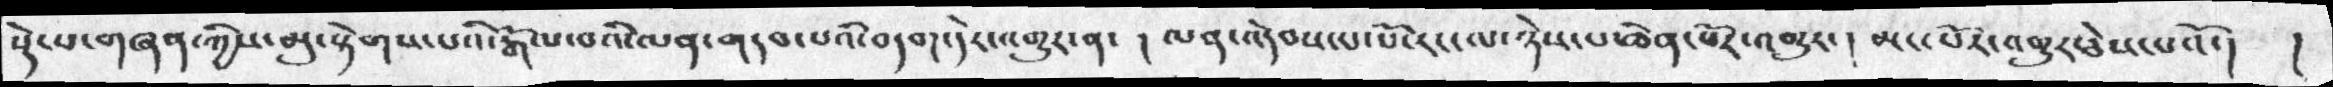སྡེ་པ་གཞན་ཀྱིས་མུ་སྟེགས་པའི་རྒོལ་བའི་ལན་གདབ་པའི་བདག་དེར་འགྱུར་ན་ ། ལན་འདེབས་པ་པོ་རང་ལ་ཉེས་པ་ཆེན་པོར་འགྱུར་། མང་པོར་འགྱུར་ཅེས་པའོ་།  །
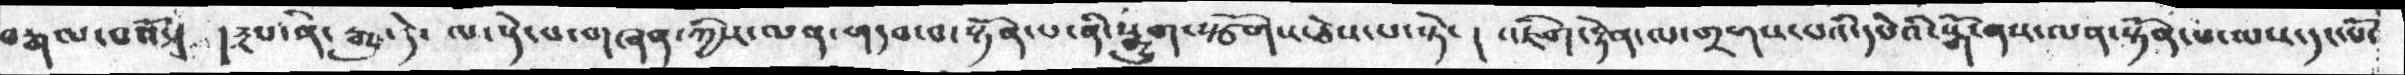བརྒལ་བའོ་། །༣པ་ནི་རྒྱུ་དེ་ལ་སྡེ་པ་གཞན་ཀྱིས་ལན་གདབ་བ་སྟོན་པ་ནི་སྒྱུག་སྩོགས་ཅེས་པ་སྟེ་། འཇིག་རྟེན་ལ་གྲགས་པའི་དཔེའི་སྒོ་ནས་ལན་སྟོན་པ་ལས་དང་པོ་
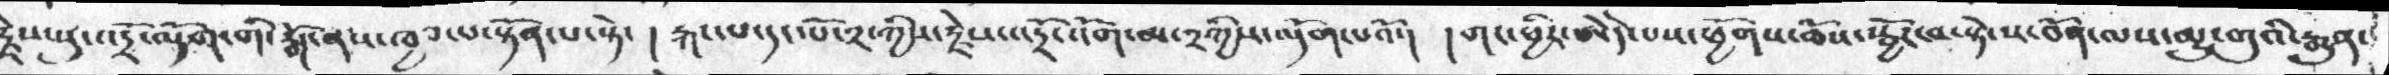རྗེས་སུ་འདྲོ་ལྡོག་གི་སྒོ་ནས་ཁྱབ་པ་སྟོན་པ་སྟེ་ ། རྐང་པ་དང་པོ་༢་ཀྱིས་རྗེས་འདྲོ་འོག་མ་༢ཀྱི་འདོག་པའོ་།  །གང་ཕྱིར་ཨེདེ་པས་ཕྱོགས་ཆོས་སྦྱོར་བ་སྟེ་ས་བོན་ལས་མྱུ་གུའི་རྒྱུན་
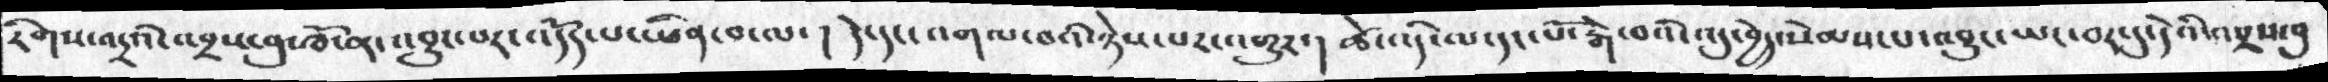རིགས་འདྲའི་འབྲས་བུ་ཁོ་ན་འབྱུང་པར་འདོད་པ་ཡིན་བ་ལ་།  དེ་དང་འགལ་བའི་ཉེས་པར་འགྱུར་།  ཚེ་འདི་ལ་དང་པོ་རྒ་བའི་འདུ་བྱེད་སེམས་པ་འབྱུང་ཡང་བར་དུ་དེའི་འབྲས་བུ
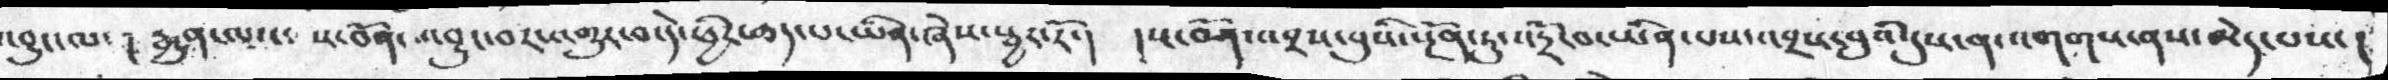འབྱུང་པ་། རྒྱུན་ལས་ ས་བོན་འབྱུང་པར་འགྱུར་བ་དེ་ཕྱིར་ཆད་པ་ཡིན་ཞེས་སྦྱར་རོ་། །ས་བོན་འབྲས་བུའི་སྔོན་དུ་འདྲོ་བ་ཡིན་པས་འབྲས་བུའི་དུས་ན་འགགས་ནས་མེད་པས་ །
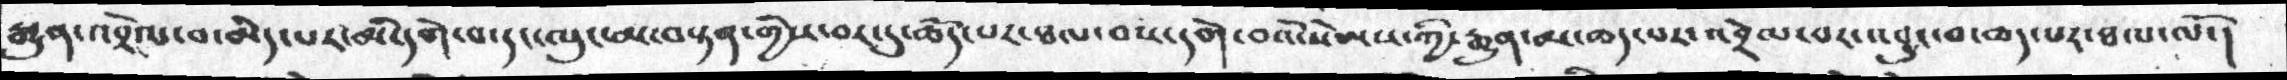རྒྱུན་འབྲེལ་བ་མེད་པར་མི་དགེ་བ་དང་ལུང་མ་བསྟན་གྱིས་བར་དུ་ཆོད་པར་ཐལ་བས་དགེ་བའི་སེམས་ཀྱི་རྒྱུན་མ་ཆད་པར་འབྲེལ་པར་འབྱུང་བ་ཆད་པར་ཐལ་ལོ་།
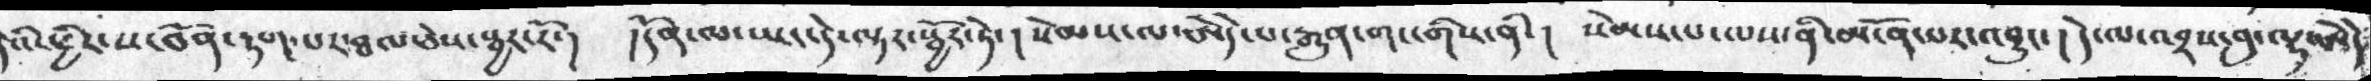པའི་ཕྱིར་ས་བོན་རྟག་པར་ཐལ་ཅེས་སྦྱར་རོ་། །དོན་ལ་ཡང་དེ་ལྟར་སྦྱོར་ཏེ་། སེམས་ལ་ཨེདེ་པ་རྒྱུན་གང་གིས་ནི་།  སེམས་པ་ལས་ནི་མངོན་པར་འབྱུང་། དེ་ལ་འབྲས་བུ་ལྷ་ཨེདེ
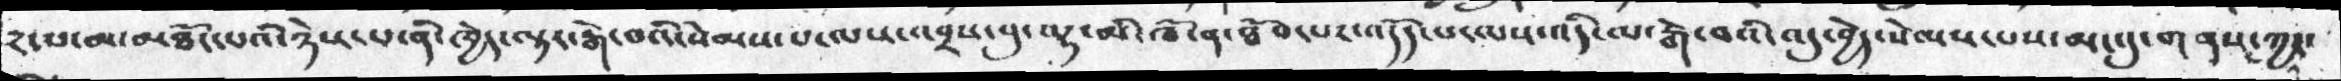༢་པ་མ་མཐོང་པའི་ཉེས་པ་ནི་ཁྱེད་ལྟར་རྒེ་བའི་སེམས་པ་ལས་འབྲས་བུ་ལྷ་མི་ཁོ་ན་ཐོབ་པར་འདོད་པ་ལས་འདི་ལ་རྒེ་བའི་འདུ་བྱེད་སེམས་པས་མང་དུ་གནས་ཀྱང་
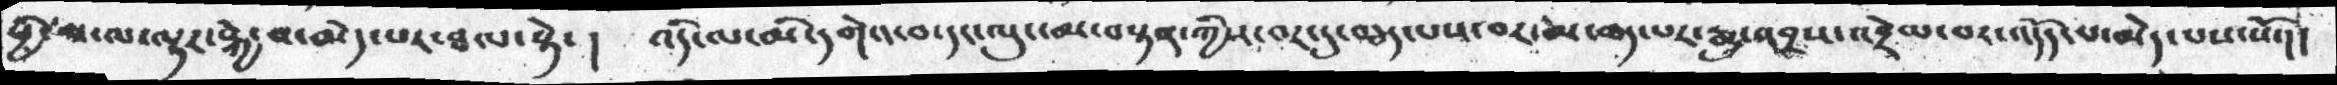ཕྱི་མ་ལ་ལྷར་སྐྱེ་བ་མེད་པར་ཐལ་སྟེ་ ། འདི་ལ་མི་དགེའ་བ་དང་ལུང་མ་བསྟན་ཀྱིས་བར་དུ་བཅད་པས་བར་མ་ཆད་པར་རྒྱུ་འབྲས་འབྲེལ་བར་འདོད་པ་མེད་པས་སོ་།།
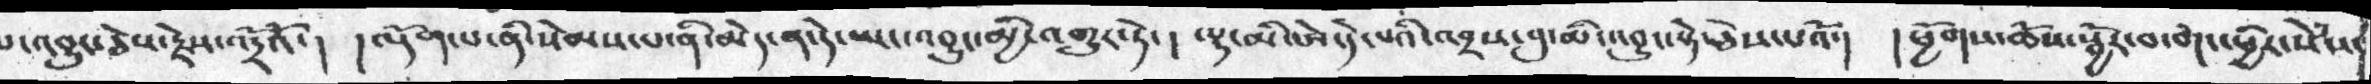པ་འབྱུང་ཅེས་རྗེས་འདྲོའོ་། །འདོག་པ་ནི་སེམས་པ་ནི་མེད་ན་དེ་ཡང་འབྱུང་མྱི་འགྱུར་ཏེ་། ལྷ་མི་ཨེ་དེ་པའི་འབྲས་བུ་མི་འབྱུང་སྟེ་ཅེས་པའོ་།  །ཕྱོགས་ཆོས་སྦྱོར་བ་གང་ཕྱིར་སེཾས་
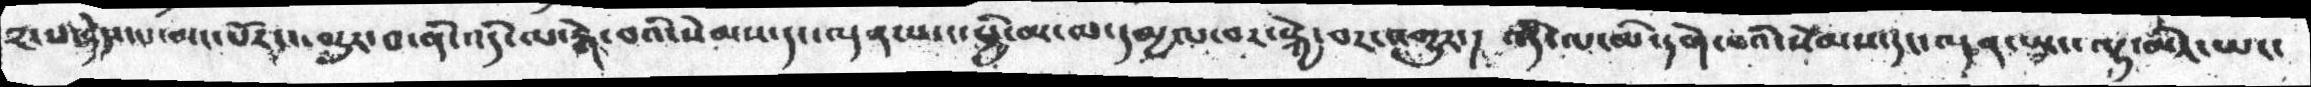༢་པ་ཉེས་པ་མང་པོར་འགྱུར་བ་ནི་འདི་ལ་རྒེ་བའི་སེམས་དང་ལྡན་པས་ཕྱི་མ་ལ་དམྱལ་བར་སྐྱེ་བར་འགྱུར་། འདི་ལ་མི་དགེ་བའི་སེམས་དང་ལྡན་ཡང་ལྷ་མིར་ཡང་
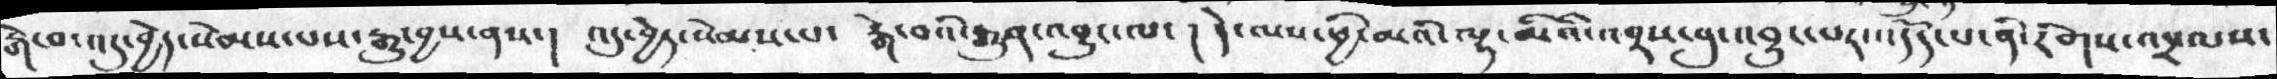རྒེ་བ་འདུ་བྱེད་སེམས་པས་རྒྱུ་བྱས་ནས་།. འདུ་བྱེད་སེམས་པ་  རྒེ་བ་རྒྱུན་འབྱུང་ལ་། དེ་ལས་ཕྱི་མའི་ལྷ་མའི་འབྲས་བུ་འབྱུང་པར་འདོད་པ་ནི་རིགས་འདྲ་ལས་
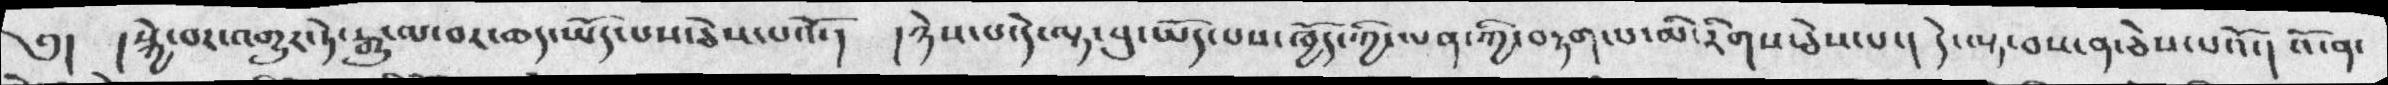༄། །སྐྱེ་བར་འགྱུར་ཏེ་རྒྱུ་ལ་བར་ཆད་ཡོད་པས་ཅེས་པའོ་། །ཉེས་པ་དེ་ལྟ་བུ་ཡོད་པས་ཁྱོད་ཀྱི་ལན་གྱི་བརྟག་པ་མི་རིགས་ཅེས་པ་།  དེ་ལྟ་བས་ན་ཅེས་པའོ་། འོ་ན་
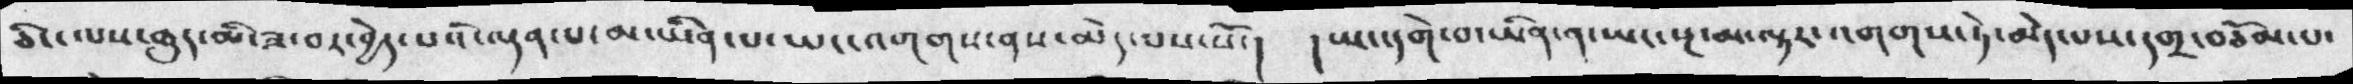ཅིང་ལས་ཆུད་མི་ཟ་བར་བྱེད་པའི་ལྡན་པ་མ་ཡིན་པ་ཡང་འགགས་ནས་མེད་པས་སོ་།   །ཡང་དགེ་བ་ཡིན་ན་ཡང་སྔ་མ་ལྟར་འགགས་ཏེ་མེད་པས་དགྲ་བཅོམ་པ་
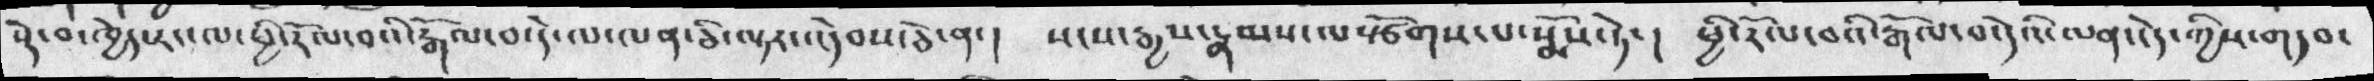སྡེ་བ་ཁྱེད་རང་ལ་ཕྱི་རོལ་བའི་རྒོལ་བ་དེ་ལ་ལན་ཅི་ལྟར་འདེབས་ཅེ་ན་ ། སངས་རྒྱས་རྣམས་ལསྩོགས་པ་སྨོས་ཏེ་ །  ཕྱི་རོལ་བའི་རྒོ་བ་དེའི་ལན་ངེད་ཀྱིས་ལན་གདབ་
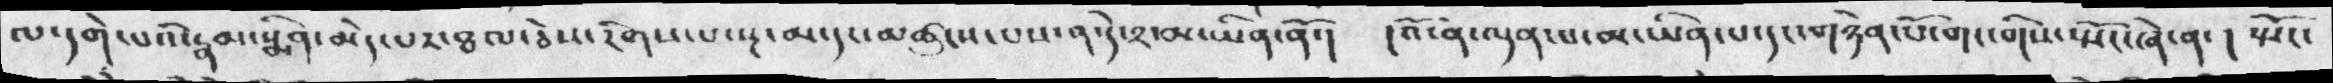ལ་དགེ་པའི་རྣམ་སྨིན་མེད་པར་ཐལ་ཅེས་རིགས་པ་སྔ་མ་དང་མཚུངས་པས་ན་དེ་༢་མ་ཡིན་ནོ་།  །འོ་ན་ལྡན་པ་མ་ཡིན་པ་དང་གཉེན་པོ་གང་གིས་སྤོང་ཞེ་ན་ ། སྤོང་
